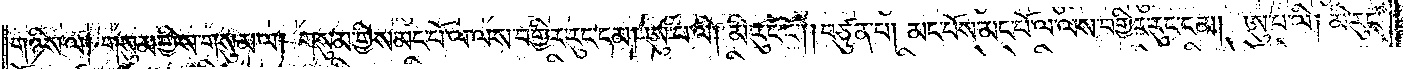གཉིས་ལ། གསུམ་གྱིས་གསུམ་ལ། གསུམ་གྱིས་མང་པོ་ལ་ལས་བགྱིར་རུང་ངམ། ཨུ་པ་ལི། མི་རུང་ངོ༌། །བཙུན་པ། མང་པོས་མང་པོ་ལ་ལས་བགྱིར་རུང་ངམ། ཨུ་པ་ལི། མི་རུང་
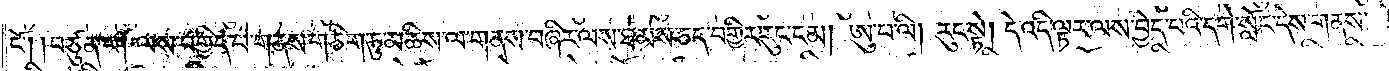ངོ༌། །བཙུན་པ། ལས་བགྱིད་པ་གནས་གཅིག་ཏུ་མཆིས་ལ་གནས་བཞིར་ལས་ཐམས་ཅད་བགྱིར་རུང་ངམ། ཨུ་པ་ལི། རུང་སྟེ། དེ་འདི་ལྟར་ལས་བྱེད་པའི་དགེ་སློང་དེས་གནས་
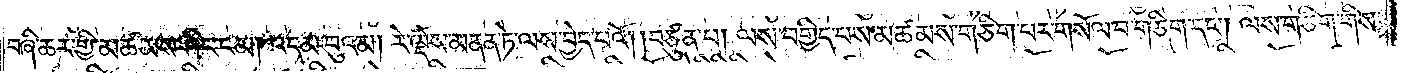བཞི་ཆར་གྱི་མཚམས་ཤིང་ངམ། འདམ་བུའམ། རེ་ལྡེས་མནན་ཏེ་ལས་བྱེད་པའོ། །བཙུན་པ། ལས་བགྱིད་པས་མཚམས་གཅིག་པར་གསོལ་བ་གཅིག་དང༌། ལས་གཅིག་གིས་
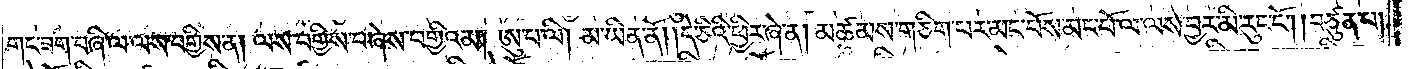གང་ཟག་བཞི་ལ་ལས་བགྱིས་ན། ལས་བགྱིས་པ་ཞེས་བགྱིའམ། ཨུ་པ་ལི། མ་ཡིན་ནོ། །དེ་ཅིའི་ཕྱིར་ཞེ་ན། མཚམས་གཅིག་པར་མང་པོས་མང་པོ་ལ་ལས་བྱར་མི་རུང་ངོ༌། །བཙུན་པ།
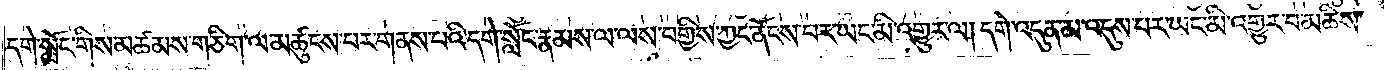དགེ་སློང་གིས་མཚམས་གཅིག་ལ་མཚུངས་པར་གནས་པའི་དགེ་སློང་རྣམས་ལ་ལས་བགྱིས་ཀྱང་ནོངས་པར་ཡང་མི་འགྱུར་ལ། དགེ་འདུན་མ་འདུས་པར་ཡང་མི་འགྱུར་བ་མཆིས་
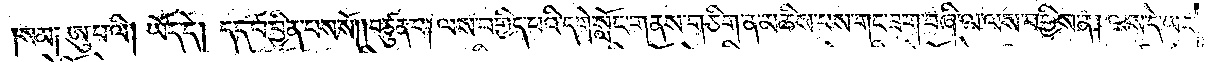སམ། ཨུ་པ་ལི། ཡོད་དེ། དད་པ་བྱིན་པས་སོ། །བཙུན་པ། ལས་བགྱིད་པའི་དགེ་སློང་གནས་གཅིག་ན་མཆིས་པས་གང་ཟག་བཞི་ལ་ལས་བགྱིས་ན། ལས་དེ་ཡང་
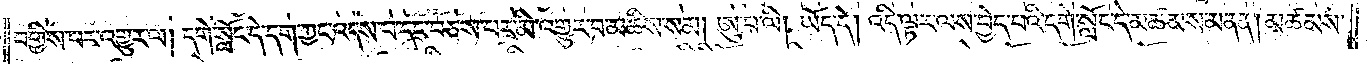བགྱིས་པར་འགྱུར་ལ། དགེ་སློང་དེ་དག་ཀྱང་འདས་པ་དང་བཅས་པར་མི་འགྱུར་བ་མཆིས་སམ། ཨུ་པ་ལི། ཡོད་དེ། འདི་ལྟར་ལས་བྱེད་པའི་དགེ་སློང་དེ་མཚམས་མནན། མཚམས་
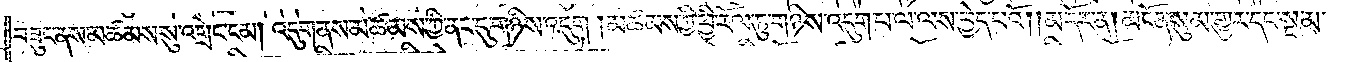བཟུང་ནས་མཚམས་སུ་འགྲེང་ངམ། འདུག་ནས་མཚམས་ཀྱི་ནང་དུ་གཉིས་འདུག །མཚམས་ཀྱི་ཕྱི་རོལ་ཏུ་གཉིས་འདུག་པ་ལ་ལས་བྱེད་པའོ། །མདོར་ན། མངོན་སུམ་གྱུར་དང་སྔ་མ་
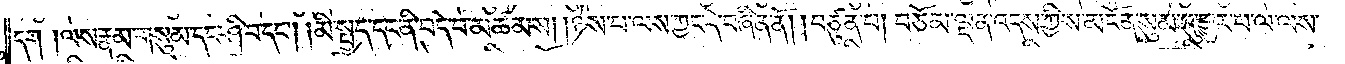དག །ལས་རྣམ་གསུམ་དང་ཤི་བ་དང༌། །མི་སྤྱད་དང་ནི་བདེ་བ་མཚམས། །ཉེས་པ་ལས་ཀྱང་དེ་བཞིན་ནོ། །བཙུན་པ། བཅོམ་ལྡན་འདས་ཀྱིས་མངོན་སུམ་དུ་གྱུར་པ་ལ་ལས་
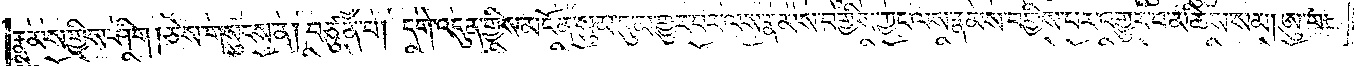རྣམས་གྱིས་ཤིག །ཅེས་གསུངས་ན། བཙུན་པ། དགེ་འདུན་གྱིས་མངོན་སུམ་དུ་མ་གྱུར་པར་ལས་རྣམས་བགྱིས་ཀྱང་ལས་རྣམས་བགྱིས་པར་འགྱུར་བ་མཆིས་སམ། ཨུ་པ་
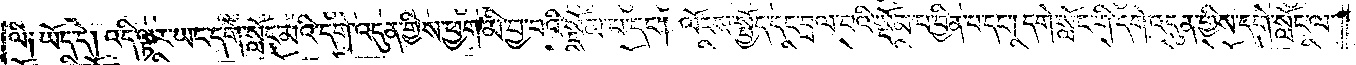ལི། ཡོད་དེ། འདི་ལྟར་ཡང་དགེ་སློང་མའི་དགེ་འདུན་གྱིས་ཕྱག་མི་བྱ་བའི་སྡོམ་པ་དང༌། ལོངས་སྤྱོད་དང་བྲལ་བའི་སྡོམ་པ་བྱིན་པ་དང༌། དགེ་སློང་གི་དགེ་འདུན་གྱིས་དགེ་སློང་ལ་
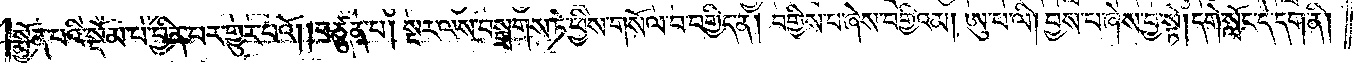སྨྱོན་པའི་སྡོམ་པ་བྱིན་པར་གྱུར་པའོ། །བཙུན་པ། སྔར་ལས་བསྒྲགས་ཏེ་ཕྱིས་གསོལ་བ་བགྱིད་ན། བགྱིས་པ་ཞེས་བགྱིའམ། ཨུ་པ་ལི། བྱས་པ་ཞེས་བྱ་སྟེ། དགེ་སློང་དེ་དག་ནི།
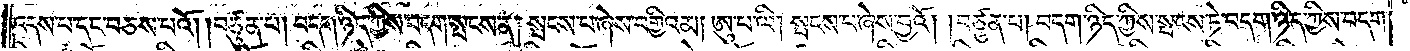འདས་པ་དང་བཅས་པའོ། །བཙུན་པ། བདག་ཉིད་ཀྱིས་བདག་སྤངས་ན། སྤངས་པ་ཞེས་བགྱིའམ། ཨུ་པ་ལི། སྤངས་པ་ཞེས་བྱའོ། །བཙུན་པ། བདག་ཉིད་ཀྱིས་སྤངས་ཏེ་བདག་ཉིད་ཀྱིས་བདག་
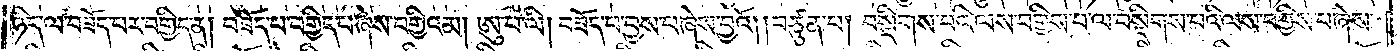ཉིད་ལ་བཟོད་པར་བགྱིད་ན། བཟོད་པ་བགྱིད་པ་ཞེས་བགྱིའམ། ཨུ་པ་ལི། བཟོད་པ་བྱས་པ་ཞེས་བྱའོ། །བཙུན་པ། བསྡིགས་པའི་ལས་བགྱིས་པ་ལ་བསྡིགས་པའི་ལས་བགྱིས་པ་ཞེས་
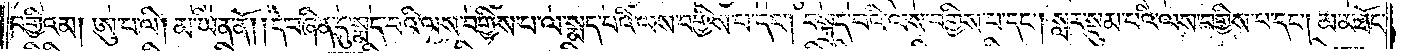བགྱིའམ། ཨུ་པ་ལི། མ་ཡིན་ནོ། །དེ་བཞིན་དུ་སྨད་པའི་ལས་བགྱིས་པ་ལ་སྨད་པའི་ལས་བགྱིས་པ་དང༌། བསྐྲད་པའི་ལས་བགྱིས་པ་དང༌། སླར་སྡུམ་པའི་ལས་བགྱིས་པ་དང༌། མ་མཐོང་
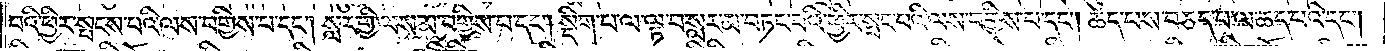བའི་ཕྱིར་སྤངས་པའི་ལས་བགྱིས་པ་དང༌། སླར་གྱི་ལས་མ་བགྱིས་པ་དང༌། སྡིག་པ་ལ་ལྟ་བ་སླར་མ་བཏང་བའི་ཕྱིར་སྤང་བའི་ལས་བགྱིས་པ་དང༌། ཆད་པས་བཅད་པ་ལ་ཆད་པའི་དང༌།
